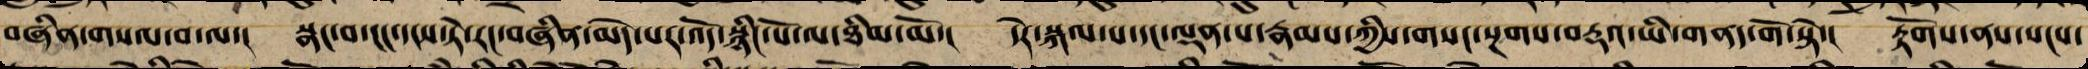བཞིན་གསལ་བ་ལ་། སྣང་བ་ངང་དངས་ཏེ་རང་བཞིན་མེད་པར་འོད་སྙིང་པོ་ལ་ཐིམ་མོ་། དེར་སྐལ་བ་དང་ལྡན་པ་རྣམས་ཀྱིས་གསང་སྔགས་བརྡའི་གནད་གོ་སྟེ་། རྟོགས་ནས་སངས་
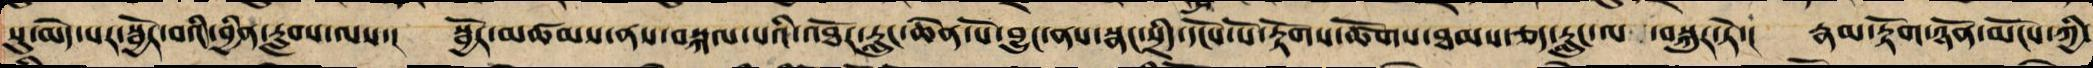སུ་མེད་པར་སྦྱོར་བའི་བྱིན་རླབས་ལས་། སྦྱོར་མཚམས་ནས་བསྐལ་པའི་འཐོར་རླུང་ཆེན་པོ་བྱུང་ནས་སྣང་སྲིད་དངོས་པོ་རྟོག་ཚོགས་ཐམས་ཅད་རླུང་ལ་བསྐུར་ཏེ་། རྣམ་རྟོག་ཉོན་མོངས་ཀྱི་
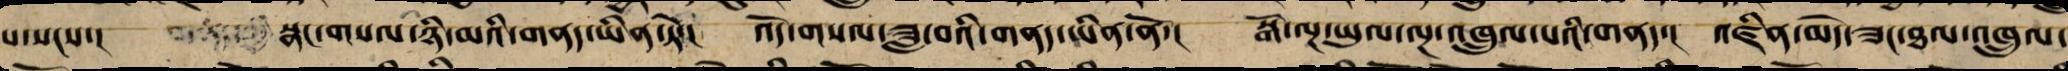པ་སངས་། སྣང་གསལ་ཉི་མའི་གནད་ཡིན་ཏེ་། འོད་གསལ་ཟླ་བའི་གནད་ཡིན་ནོ་། སྒོ་ལྔ་ཡུལ་ལྔ་འཁྲུལ་པའི་གནད་། འཛིན་མེད་ཟང་ཐལ་འཁྲུལ་
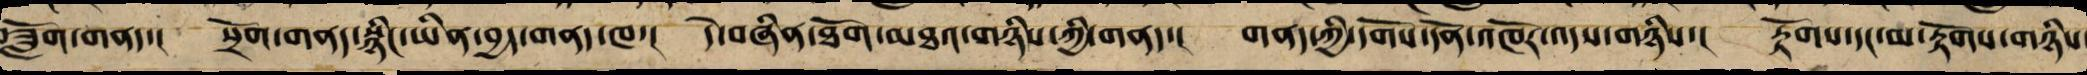བཟློག་གནད་། སྲོག་གནད་སྙིང་ཡིན་བྱད་གནད་ཁ་། དེ་བཞིན་ཐོག་མཐའ་གཉིས་ཀྱི་གནད་། གནད་ཀྱི་དགོས་དོན་འཁོར་འདས་གཉིས་། རྟོགས་དང་མ་རྟོགས་གཉིས
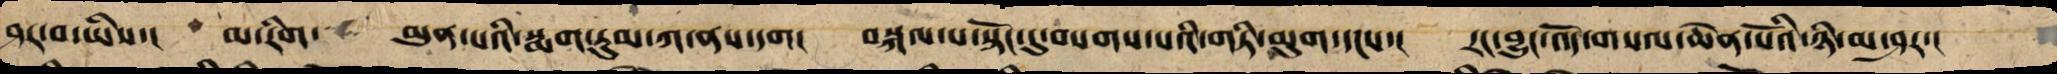ཤར་བ་ཡིས་། མ་རིག་མུན་པའི་སྨག་རུམ་ཀ་ནས་དག། བསྐལ་པ་སྟོང་དུ་བསགས་པའི་གཏི་མུག་དངས་། རང་བྱུང་འོད་གསལ་ཆེན་པོའི་ཉི་མ་ཤར་།
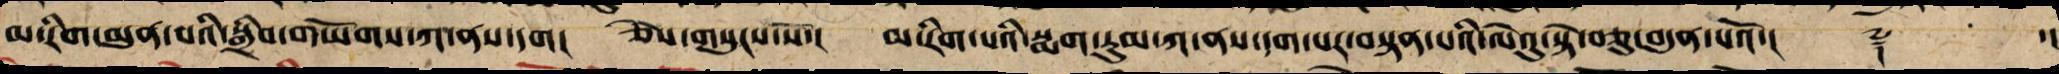མ་རིག་མུན་པའི་སྒྲིབ་གཡོགས་ཀ་ནས་དག། ཅེས་གསུངས་སོ་། མ་རིག་པའི་སྨག་རུམ་ཀ་ནས་དག་པར་བསྟན་པའི་ལེའུ་སྟེ་བཅུ་བདུན་པའོ་།། ༈ ་།།
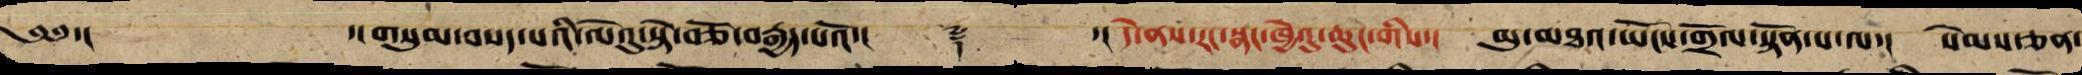༄༅་།   ་།གསུམ་བསད་པའི་ལེའུ་སྟེ་བཅོ་བརྒྱད་པའོ་།། ༈ ་།། དེ་ནས་རང་སྣང་ཁྱེའུ་ཆུང་གིས་། མུ་མཐའ་ཡོངས་གྲོལ་སྟོན་པ་ལ་། སེམས་ཅན་
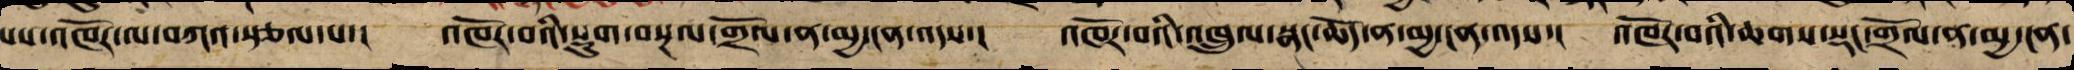པས་འཁོར་ལ་བཀའ་སྩལ་པ་། འཁོར་བའི་སྡུག་བསྔལ་གྲོལ་ན་མྱ་ངན་འདས་། འཁོར་བའི་འཁྲུལ་སྣང་ཆོད་ན་མྱ་ངན་འདས་། འཁོར་བའི་ཆགས་སྡང་གྲོལ་ན་མྱ་ངན་
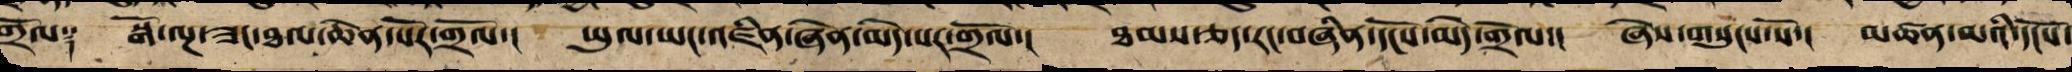གྲོལ༑ སྒོ་ལྔ་ཟང་ཐལ་ཆེན་པོར་གྲོལ་། ཡུལ་ཡང་འཛིན་ཞེན་མེད་པར་གྲོལ་། ཐམས་ཅད་རང་བཞིན་དངོས་མེད་གྲོལ་། ཞེས་གསུངས་སོ་། མཚན་མའི་དངོས་
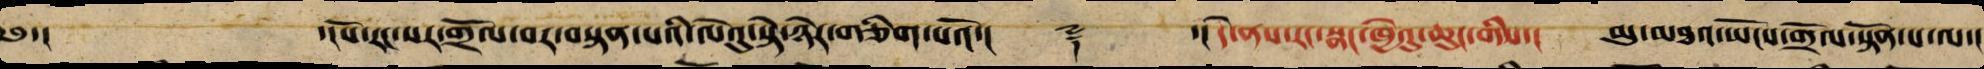༄༅་།  ་།པོ་རང་སར་གྲོལ་བར་བསྟན་པའི་ལེའུ་སྟེ་ཉེར་གཅིག་པའོ་།། ༈ ་།། དེ་ནས་རང་སྣང་ཁྱེའུ་ཆུང་གིས་། མུ་མཐའ་ཡོངས་གྲོལ་སྟོན་པ་ལ་།
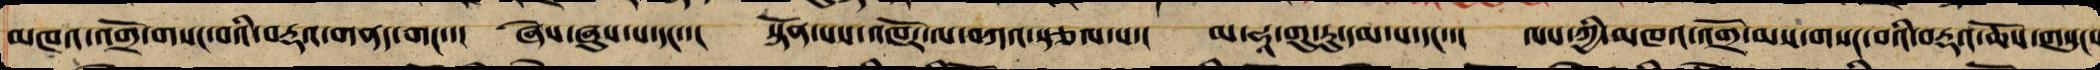མཁའ་འགྲོ་གསང་བའི་བརྡའ་གནད་གང་་། ཞེས་ཞུས་པ་དང་་། སྟོན་པས་འཁོར་ལ་བཀའ་སྩལ་པ་། མ་ཧཱ་གུ་རུ་དམ་པ་དང་་། ལས་ཀྱི་མཁའ་འགྲོ་མས་གསང་བའི་བརྡའ་ཆོས་གསུངས
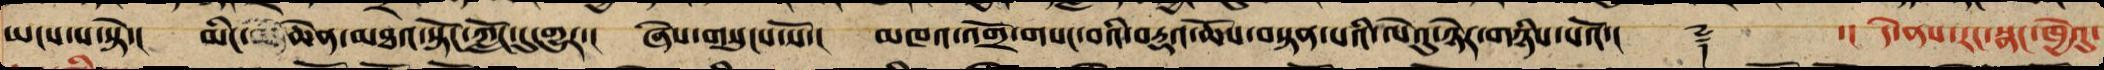ཡངས་པ་སྟེ་། མིང་ཆེན་མཐའ་སྟོངས་ཀློང་དུ་གྱུར་། ཞེས་གསུངས་སོ་། མཁའ་འགྲོ་གསང་བའི་བརྡའ་ཆོས་བསྟན་པའི་ལེའུ་སྟེ་ཉེར་གཉིས་པའོ་།། ༈ ་། དེ་ནས་རང་སྣང་ཁྱེའུ་
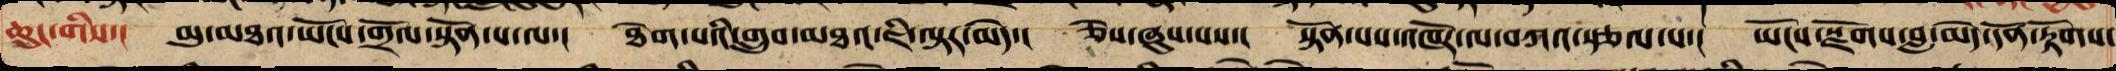ཆུང་གིས་། མུ་མཐའ་ཡོངས་གྲོལ་སྟོན་པ་ལ་། ཐེག་པའི་གྲུབ་མཐའ་ཇི་ལྟར་མེད་། ཅེས་ཞུས་པས་། སྟོན་པས་འཁོར་ལ་བཀའ་སྩལ་པ་། ཡོངས་རྫོགས་བླ་མེད་དོན་རྟོགས་
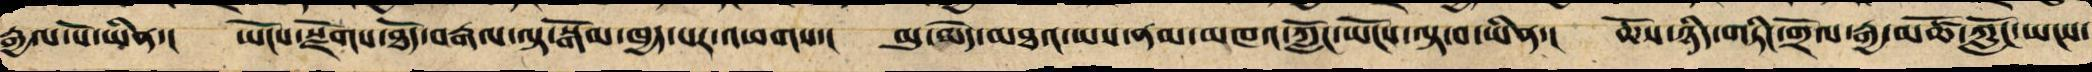རྒྱལ་པོ་ཡིན་། ཡོངས་རྫོགས་ཐོད་རྒལ་བལྟ་བསྒོམ་ཁྱད་པར་འཕགས་། མུ་མེད་མཐའ་ཡས་ནམ་མཁའ་ཀློང་ཡངས་ལྟ་བ་ཡིན་། ཆོས་ཉིད་གཏིང་གྲོལ་རྒྱ་མཚོ་ཀློང་ཡངས་
